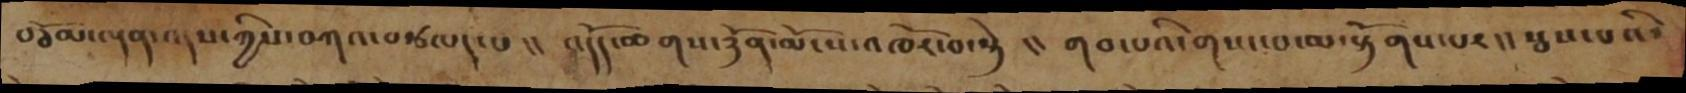བཅོམ་ལྡན་འདས་ཀྱིས་བཀའ་བསྩལད་པ།། འདོད་ཆགས་ཉོན་མོངས་འཁོར་བ་སྟེ།། གབ་པའི་གསང་བ་མ་རྟོགས་པར།།སྦས་པའི་
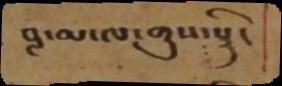བླ་མ་ལ་གུས་སྟི་
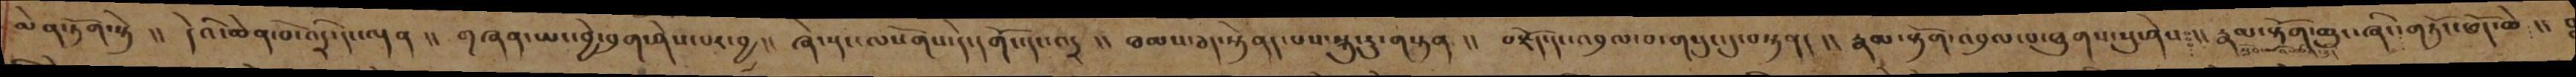མེན་ཏོག་སྟེ།། དེའི་ཆེན་པོ་འདྲི་དང་ལྡན།། གཞན་ཡང་བྱེ་བྲག་ཤེས་པར་བྱ།།  ཞེ་སྡང་ལསོགས་དེ་དགོང་དང་འདྲ།། ཐམས་ཅད་སྟེནད་པས་སྐུ་རུ་གསྟན།། བརྗོད་དང་འབྲལ་བ་གསུང་དུ་བསྟན།།  རྣམ་རྟོག་འབྲལ་བ་ཐུགས་སུ་ཤེས།། རྣམ་རྟོག་ཆུང་ཞིང་གཏོང་ཕོད་ཆེ།།
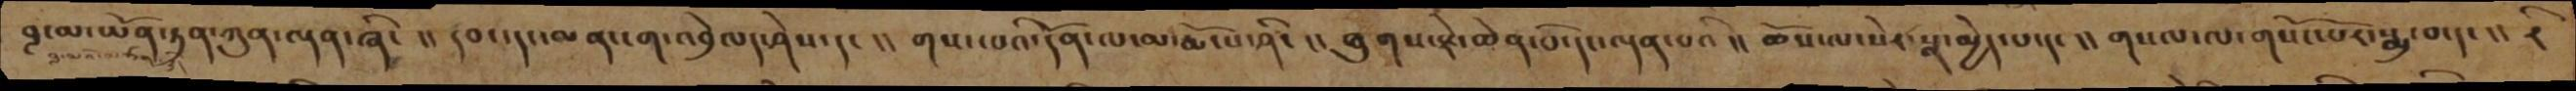བླ་མ་ཡོན་ཏན་ཀུན་ལྡན་ཞིང།། དབང་དང་མན་ངག་འབྲེལད་ཤེས་དང།། གསང་བའི་དོན་ལ་མ་རྨོངས་ཤིང།། ཐུགས་རྗེ་ཆེན་པོ་དང་ལྡན་པའི།། ཆོས་ལ་སེར་སྣ་མྱེད་པ་དང།། གསལ་ལ་གསོང་པོར་སྨྲ་བ་དང།། རི
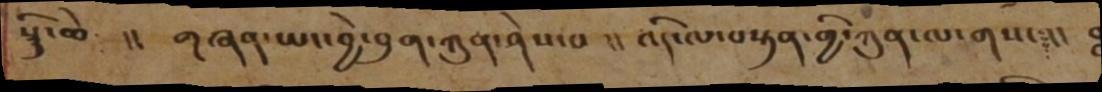སྙི་ཆེ །།  གཞན་ཡང་བྱེ་བྲག་ཀུན་ཤེས་པ །། འདི་ལ་བསྟན་གྱི་ཀུན་ལ་གསང།། ཿ
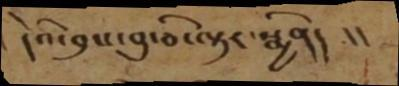དེའི་བྲས་བུ་ཅི་ལྟར་སྨྱིནད །།
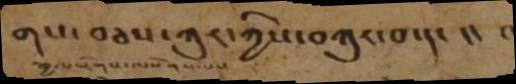གས་བཅས་ཀུར་ཀྱིས་བཀུར་བ་དང །། །།
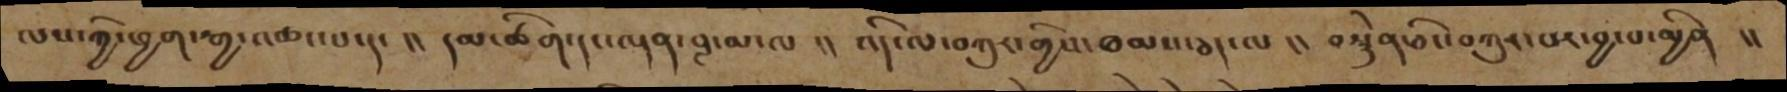ལས་ཀྱི་ཕྱག་རྒྱ་འཆང་པ་དང།། དམ་ཚིག་དང་ལྡན་བླ་མ་ལ།། འདི་ལ་བཀུར་གྱིས་ཐམས་ཅད་ལ།། བསྟེན་ཅིང་བཀུར་བར་བྱ་པ་མྱིན །།
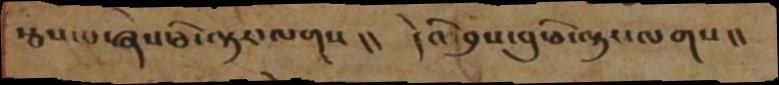སྦས་པ་ཞེས་ཅི་ལྟར་ལགས།། དེའིབུས་བུ་ཅི་ལྟར་ལགས།།
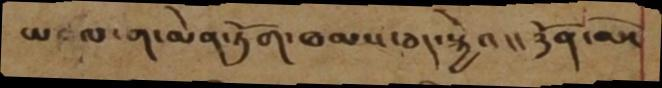ཡལ་ག་མེན་ཏོག་ཐམས་ཅད་སྐྱེའ།། ཉོན་མོང
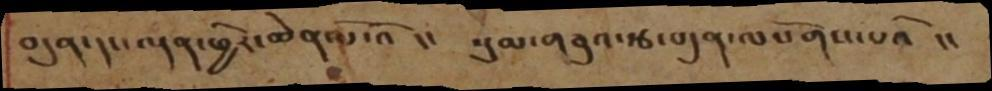བདུན་དང་ལྡན་ཕྱིར་ཆེན་པོ་འོ།། སུམ་གཅུའ་རྩ་བདུན་ལསོགས་པའོ །།
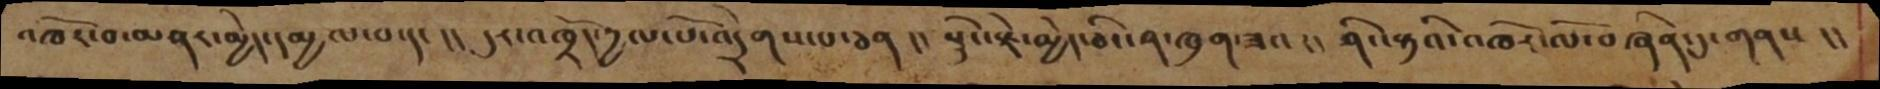འཁོར་བ་མནར་མྱེད་དམྱལ་བ་དང །། དུར་འཁྲོད་དྱལ་པོ་འདྲེགས་པ་ཅན །།སྙིང་རྗེ་མྱེད་ཅིང་ན་ཁུག་ཟའ །། ཤིང་རྟའི་འཁོར་ལོ་བཞིན་དུ་གནས །།
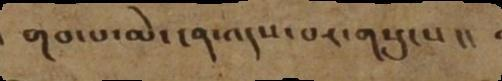གབ་པ་མེ་ངན་འདས་པར་གསུངས།།
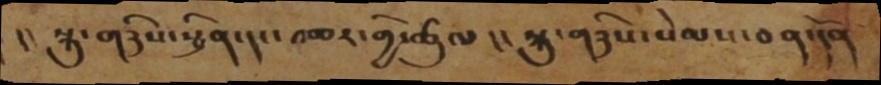།། སྐུ་གཉིས་སྦྱིན་དང་འཆར་གྱི་ཚུལ།། སྐུ་གཉིས་སེམས་ཅན་དོན
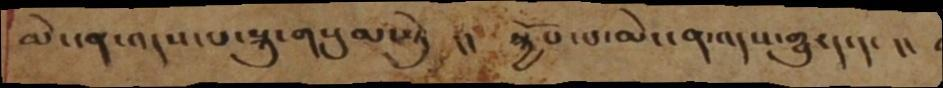མེ་ངན་འདས་པ་སྐུ་གསུམ་སྟེ །། སྐྱོབ་པ་མེད་ན་འདས་གྱུརད་དང །།
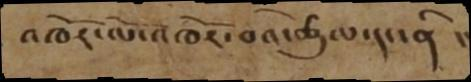འཁོར་ལོ་འཁོར་བའི་ཚུལ་དང་ནི །།
